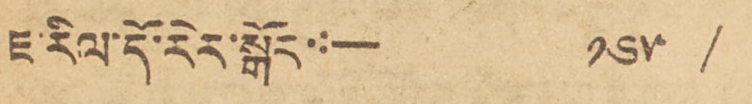ཇ་རིལ་དོ་རེར་སྒོར་:— ༡༦༥/
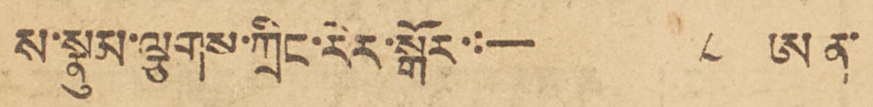ས་སྣུམ་ལྕགས་ཀྲིང་རེར་སྒོར་:— ༨ ཨ ན་
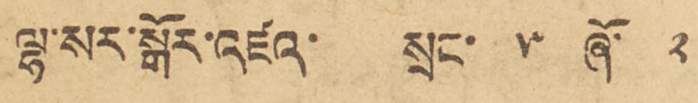ལྷ་སར་སྒོར་འཛའ་ སྲང་ ༥ ཞོ་ ༢
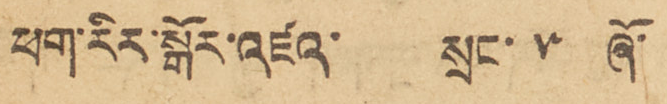ཕག་རིར་སྒོར་འཛའ་ སྲང་ ༥ ཞོ་
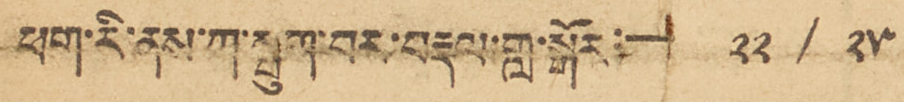ཕག་རི་ནས་ཀ་སྤུག་བར་བརྡལ་གླུ་སྒོར་:— ༢༢/༢༥
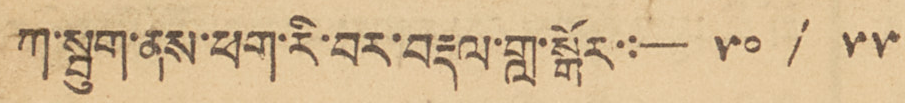ཀ་སྦུག་ནས་ཕག་རི་བར་བརྡལ་གླུ་སྒོར་:—༥༠ / ༥༥
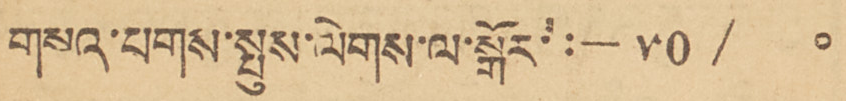གསའ་པགས་སྤུས་ལེགས་ལ་སྒོར་:— ༥O / ༠
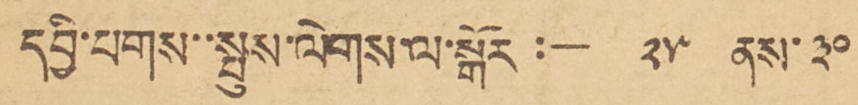དབྱི་པགས་སྤུས་ལེགས་ལ་སྒོར :— ༢༥ ནས་༣༠
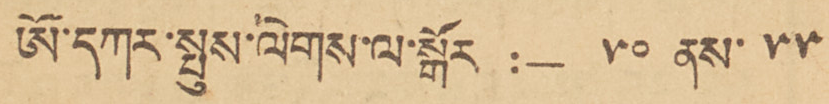ཨོ་དཀར་སྤུས་ལེགས་ལ་སྒོར :— ༥༠ ནས་ ༥༥
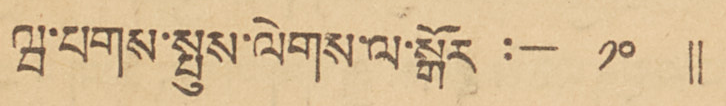ཝ་པགས་སྤུས་ལེགས་ལ་སྒོར :— ༡༠ །།
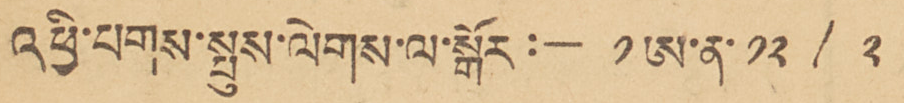འཕྱི་པགས་སྤུས་ལེགས་ལ་སྒོར་:— ༡ཨ་ན་ ༡༢/༢
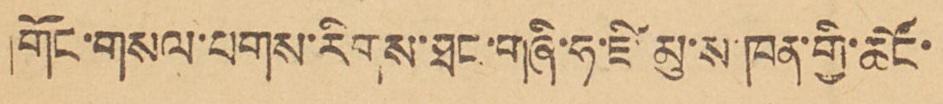གོང་གསལ་པགས་རིགས་ཐང་གཞི་ཧ་ཇི་མུ་ས་ཁན་གྱི་ཚོང་
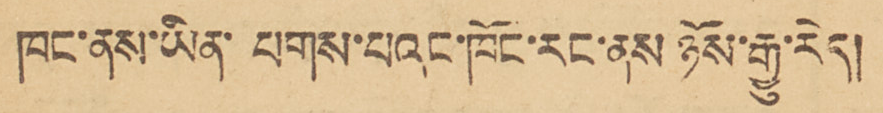ཁང་ནས་ཡིན་པགས་པའང་ཁོང་རང་ནས ཉོས་རྒྱུ་རེད།
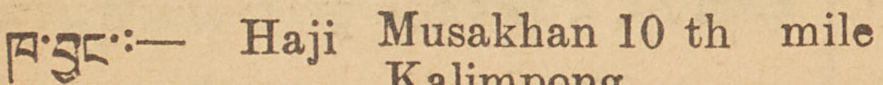ཁ་བྱང་:— Haji Musakhan 10th mile
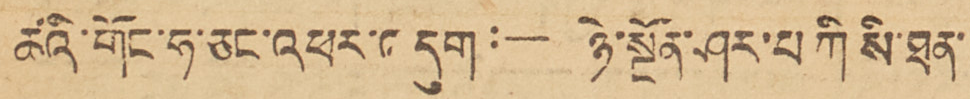ཚའི་གོང་ཧ་ཅང་འཕར་འདུག་:— ཉེ་སྔོན་ཤར་པ ཀི སི་ཐན་
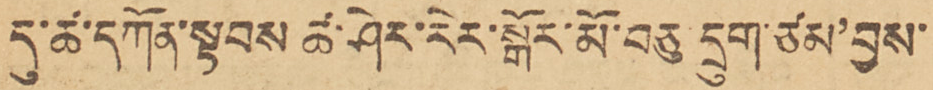དུ་ཚ་དཀོན་སྟབས ཚ་ཤེར་རེར་སྒོར་མོ་བཅུ དྲུག་ཙམ་བྱས་
